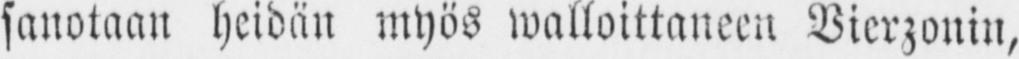sanotaan heidän myös walloittaneen Vierzonin,
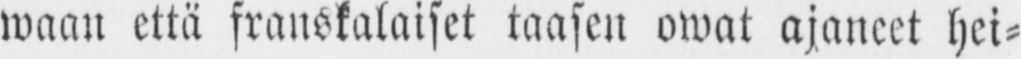waan että franskalaiset taasen owat ajaneet hei-
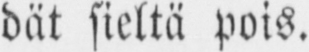dät sieltä pois.
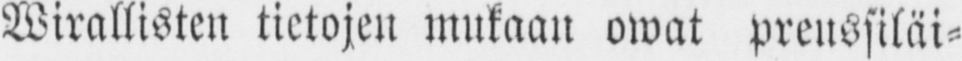Wirallisten tietojen mukaan owat preussiläi-
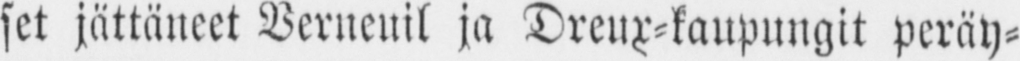set jättäneet Verneuil ja Dreux-kaupungit peräy-
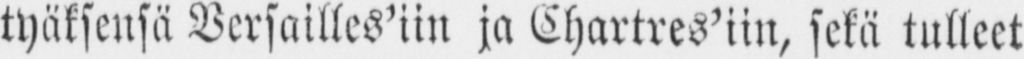tyäksensä Versailles’iin ja Chartres’iin, sekä tulleet
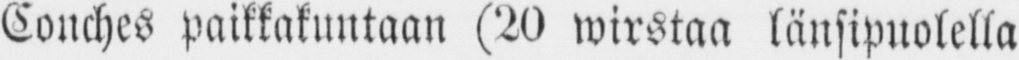Conches paikkakuntaan (20 wirstaa länsipuolella
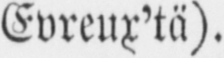Evreux’tä).
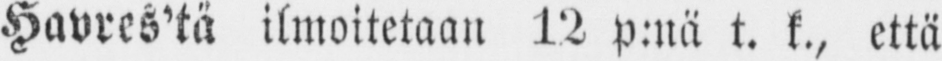Havres’tä ilmoitetaan 12 p:nä t. k., että
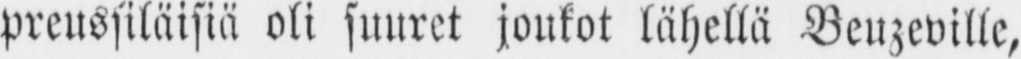preussiläisiä oli suuret joukot lähellä Beuzeville,
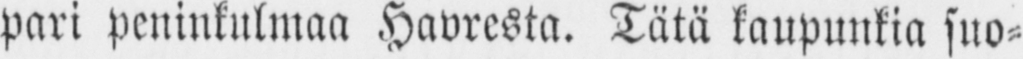pari peninkulmaa Havresta. Tätä kaupunkia suo-
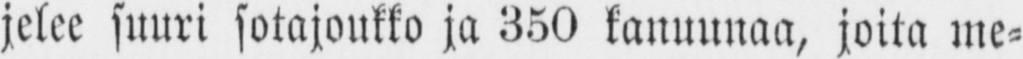jelee suuri sotajoukko ja 350 kanuunaa, joita me-
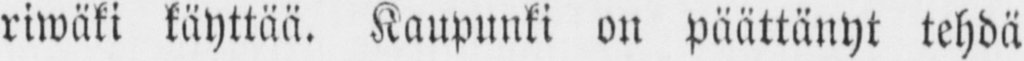riwäki käyttää. Kaupunki on päättänyt tehdä
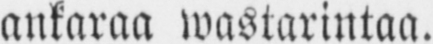ankaraa wastarintaa.
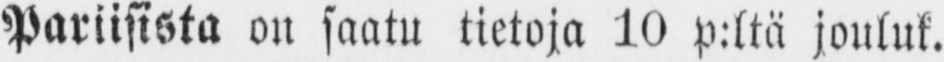Pariisista on saatu tietoja 10 p:ltä jouluk.
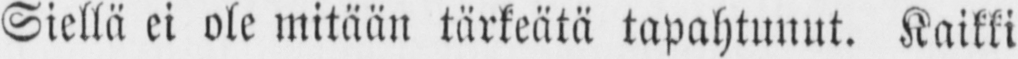Siellä ei ole mitään tärkeätä tapahtunut. Kaikki
